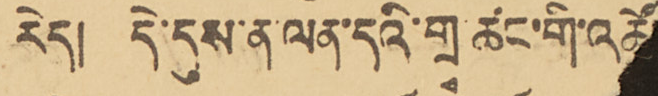རེད། དེ་དུས་ན་ལན་དའི་གྲྭ ཚང་གི་འཚོ
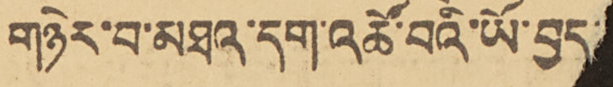གཉེར་བ་མཐར་དག་འཚོ་བོའི་ཡོ་བྱད་
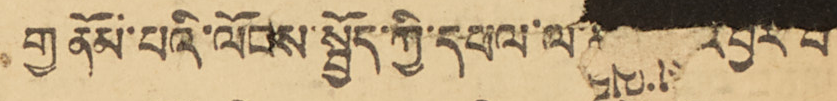གྱ ནོམ་པའི་ལོངས་སྤྱོད་ཀྱི་དཔལ་ལ་འབྱར་བ།
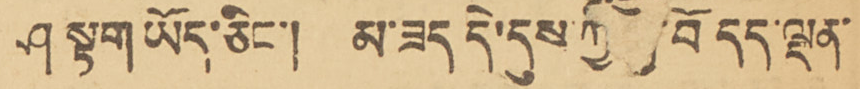ཤ སྟག ཡོད་ཅིང་། མ་ཟད དེ་དུས་ཀྱི བོ དད་ལྡན་
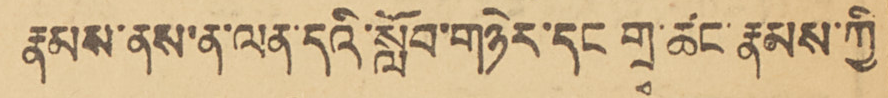རྣམས་ནས་ན་ལན་དའི་སློབ་གཉེར་དང གྲྭ་ཚང་རྣམས་ཀྱི
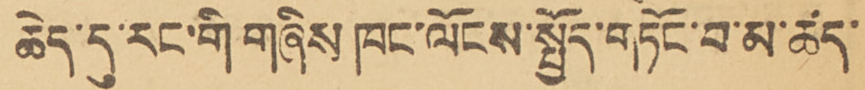ཆེད་དུ་རང་གི་གཞིས ཁང་ལོངས་སྤྱོད་གཏོང་བ་མ་ཚད་
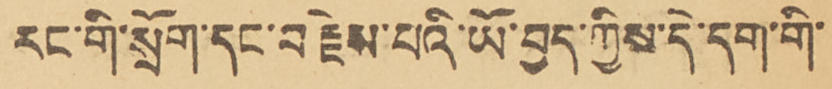རང་གི་སྲོག་དང་བརྗེས་པའི་ཡོ་བྱད་ཀྱིས་དེ་དག་གི་
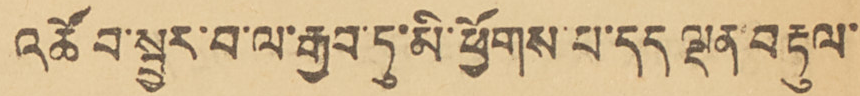འཚོབ་སྦྱར་བ་ལ་རྒྱབ་ཏུ་མི་ཕྱོགས་པ་དད ལྡན་བརྟུལ་
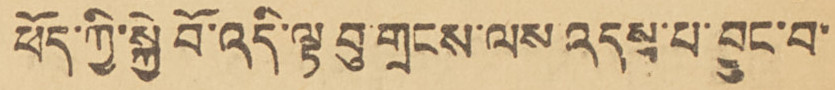ཕོད་ཀྱི་སྐྱེ བོ་འདི་ལྟ་བུ་གྲངས་ལས་འདས་པ་བྱུང་བ་
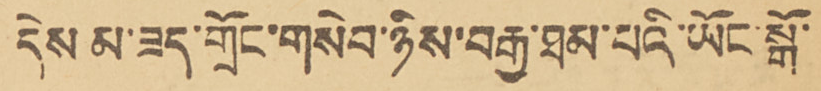དེས མ་ཟད་གྲོང་གསེབ་ཉིས་བརྒྱ་ཐམ་པའི་ཡོང་སྒོ་
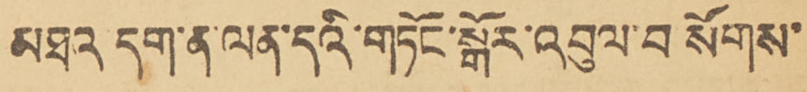མཐའ དག་ན་ལན་དའི་གཏོང་སྒོར་འབུལ་བ སོགས་
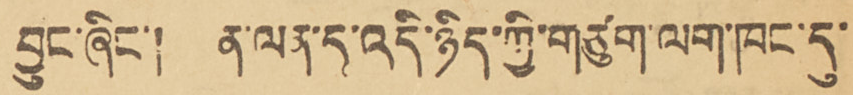བྱུང་ཞིང་། ན་ལན་ད་འདི་ཉིད་ཀྱི་གཙུག་ལག་ཁང་དུ་
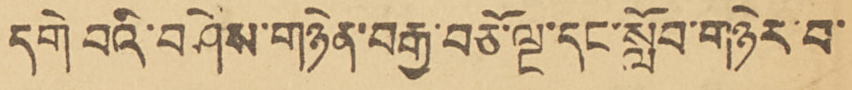དགེ བའི་བཤེས་གཉེན་བརྒྱ་བཅོ་ལྔ་དང་སློབ་གཉེར་བ་
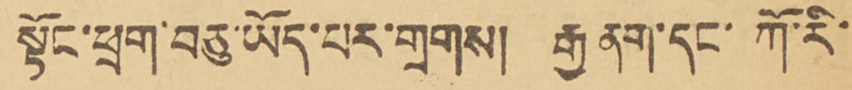སྟོང་ཕྲག་བཅུ་ཡོད་པར་གྲགས། རྒྱ ནག་དང་ཀོ་རི་
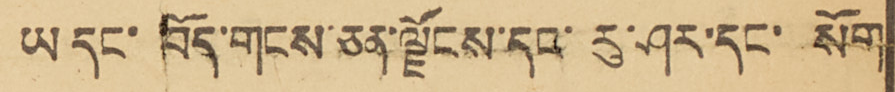ཡ དང་བོད་གངས་ཅན་ལྗོངས་དང་རུ་ཤར་དང་ སོག
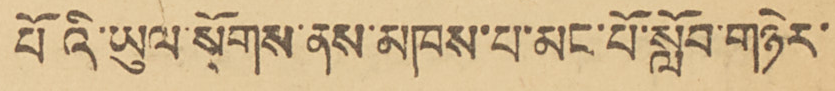པོའི་ཡུལ་སོགས་ནས་མཁས་པ་མང་པོ་སློབ་གཉེར་
